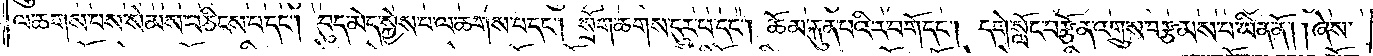ལ་ཆགས་པས་སེམས་བཅིངས་པ་དང༌། བུད་མེད་སྐྱེས་པ་ལ་ཆགས་པ་དང༌། སྲོག་ཆགས་ངུར་པ་དང༌། ཆོམ་རྐུན་པའི་ར་བགོ་དང༌། དགེ་སློང་བརྩོན་འགྲུས་བརྩམས་པ་ཡིན་ནོ། །ཞེས་
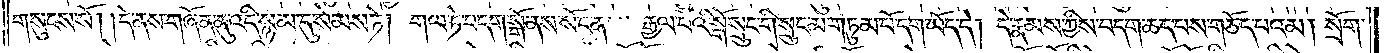གསུངས་སོ། །དེ་ནས་གཞོན་ནུ་འདི་སྙམ་དུ་སེམས་ཏེ། གལ་ཏེ་བདག་སྒོ་ནས་སོང་ན<gap>རྒྱལ་པོའི་སྒོ་སྲུང་གི་སྲུང་མ་གཏུམ་པོ་དག་ཡོད་དེ། དེ་རྣམས་ཀྱིས་བདག་ཆད་བས་གཅོད་པའམ། སྲོག་
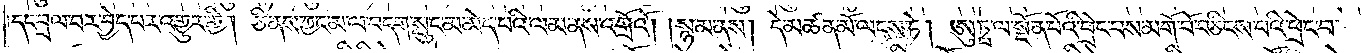དང་བྲལ་བར་བྱེད་པར་འགྱུར་གྱི། ཅི་ནས་ཀྱང་མ་ལ་བདག་སྲུང་མ་མེད་པའི་ལམ་ནས་འགྲོའོ། །སྙམ་ནས། དེ་མཚན་མོ་ལངས་ཏེ། ཨུཏྤ་ལ་སྔོན་པོའི་ཕྲེང་བས་མགོ་བོ་བཅིངས་པའི་ཕྲེང་བ་
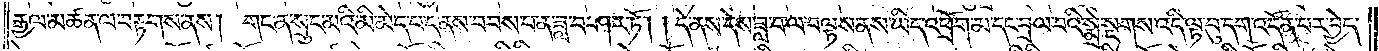རྒྱལ་མཚན་ལ་བརྟགས་ནས། གང་ན་སྲུང་མའི་མི་མེད་པ་དེ་ནས་བབས་པ་ན་ཟླ་བ་ཤར་ཏོ། །དེ་ནས་དེས་ཟླ་བ་ལ་བལྟས་ནས་ཡིད་འཕྲོག་མ་དང་བྲལ་བའི་སྨྲེ་སྔགས་འདི་ལྟ་བུ་དག་འདོན་པར་བྱེད་
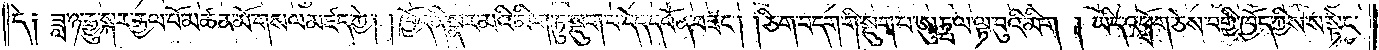དེ༑ ཟླ་ཉ་རྒྱུ་སྐར་རྒྱལ་པོ་མཚན་མོ་གསལ་མཛད་ཀྱེ། །ཁྱོད་ནི་སྣར་མའི་མིག་ཏུ་སྡུག་པ་དེད་དཔོན་བཟང༌། །ཅིག་བདག་གི་སྡུག་པ་ཨུཏྤལ་ལྟ་བུའི་མིག །ཡིད་འཕྲོག་ཅེས་བགྱི་ཁྱོད་ཀྱིས་ས་སྟེང་
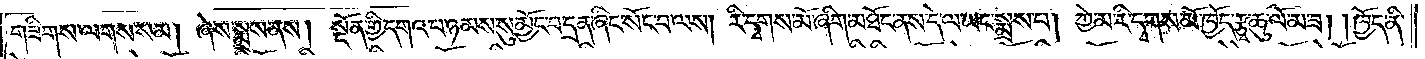གཟིགས་ལགས་སམ། ཞེས་སྨྲས་ནས། སྔོན་གྱི་དགའ་པ་ཉམས་སུ་མྱོང་བ་དྲན་ཞིང་སོང་བ་ལས། རི་དྭགས་མོ་ཞིག་མཐོང་ནས་དེ་ལ་ཡང་སྨྲས་པ། ཀྱེ་མ་རི་དྭགས་མོ་ཁྱོད་རྩྭ་ཆུ་ལོ་མ་ཟ། ཁྱོད་ནི་
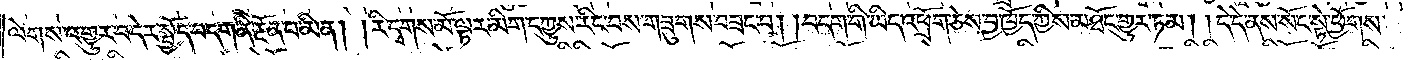ལེགས་འགྱུར་བ་དེར་སྤྱོད་བདག་ནི་རྔོན་པ་མིན། །རི་དྭགས་མོ་ལྟར་མིག་དཀྱུས་རིང་བས་གཟུགས་བཟང་བ། །བདག་གི་ཡིད་འཕྲོག་ཅེས་བྱ་ཁྱོད་ཀྱིས་མཐོང་གྱུར་ཏམ། །དེ་དེ་ནས་སོང་སྟེ་ཕྱོགས་
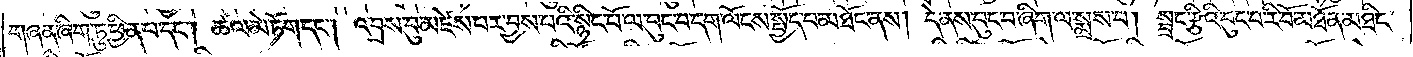གཞན་ཞིག་ཏུ་ཕྱིན་པ་དང༌། ཚལ་མེ་ཏོག་དང༌། འབྲས་བུ་མཛེས་པར་བྱས་པའི་སྙིང་པོ་ལ་བུང་བ་དག་ལོངས་སྤྱོད་པ་མཐོང་ནས། དེ་ནས་བུང་བ་ཞིག་ལ་སྨྲས་པ། སྦྲང་རྩིའི་བུང་བ་རི་བོ་མཐོན་མཐིང་
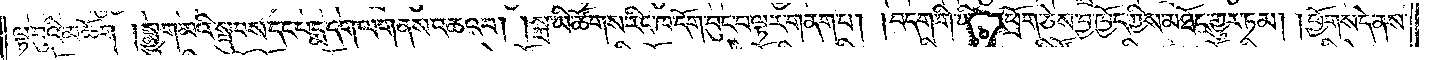ལྟ་བུའི་མཆོག །སྨྱུག་མའི་སྦུབས་དང་པདྨ་དག་ལ་གནས་འཆའ་བ། །སྐྲ་ཡི་ཚོགས་རིང་ཁ་དོག་བུང་བ་ལྟར་གནག་པ། །བདག་གི་ཡིད་འཕྲོག་ཅེས་བྱ་ཁྱོད་ཀྱིས་མཐོང་གྱུར་ཏམ། །ཕྱོགས་དེ་ནས་
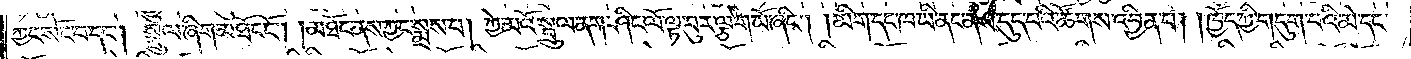ཀྱང་སོང་བ་དང༌། སྦྲུལ་ཞིག་མཐོང་ངོ༌། །མཐོང་ནས་ཀྱང་སྨྲས་པ། ཀྱེ་མའི་སྦྲུལ་ནག་ཤིང་ལོ་ལྟ་བུར་ལྕེ་གཡོ་ཞིང༌། །མིག་དང་ཁ་ཡི་ནང་ནས་དུད་པའི་ཚོགས་འབྱིན་པ། །ཁྱོད་ཀྱི་གདུག་པའི་མེ་དང་
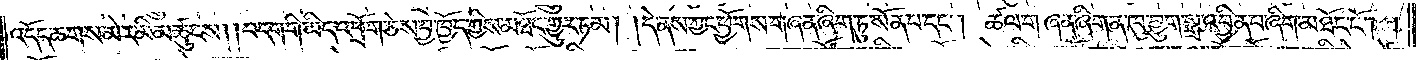འདོད་ཆགས་མེར་མི་མཚུངས། །བདག་གི་ཡིད་འཕྲོག་ཅེས་བྱ་ཁྱོད་ཀྱིས་མཐོང་གྱུར་ཏམ། །དེ་ནས་ཀྱང་ཕྱོགས་གཞན་ཞིག་ཏུ་སོན་པ་དང༌། ཚལ་གཞན་ཞིག་ན་ཁུ་བྱུག་སྒྲ་འབྱིན་པ་ཞིག་མཐོང་ངོ༌། །
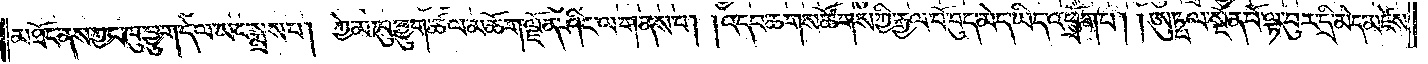མཐོང་ནས་ཀྱང་ཁུ་བྱུག་དེ་ལ་ཡང་སྨྲས་པ། ཀྱེ་མ་ཁུ་བྱུག་ཚལ་མཆོག་ལྗོན་ཤིང་ལ་གནས་པ། །འདབ་ཆགས་ཚོགས་ཀྱི་རྒྱལ་པོ་བུད་མེད་ཡིད་འཕྲོག་པ། །ཨུཏྤལ་སྔོན་པོ་ལྟ་བུར་དྲི་མེད་མཛེས་
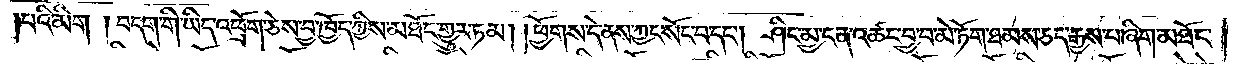པའི་མིག །བདག་གི་ཡིད་འཕྲོག་ཅེས་བྱ་ཁྱོད་ཀྱིས་མཐོང་གྱུར་ཏམ། །ཕྱོགས་དེ་ནས་ཀྱང་སོང་བ་དང༌། ཤིང་མྱ་ངན་འཚང་བྱ་བ་མེ་ཏོག་ཐམས་ཅད་རྒྱས་པ་ཞིག་མཐོང་
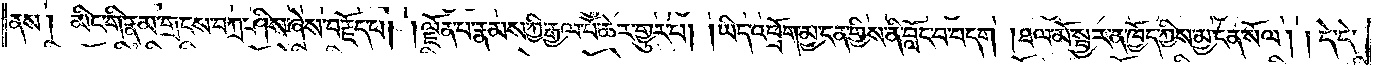ནས། མིང་གི་རྣམ་གྲངས་བཀྲ་ཤིས་ཞེས་བརྗོད་པ། །ལྗོན་པ་རྣམས་ཀྱི་རྒྱལ་པོ་ཆེར་གྱུར་པ། །ཡིད་འཕྲོག་མྱ་ངན་གྱིས་ནི་བློང་བ་བདག །ཐལ་མོ་སྦྱར་ན་ཁྱོད་ཀྱིས་མྱ་ངན་སོལ། །དེ་དེ་
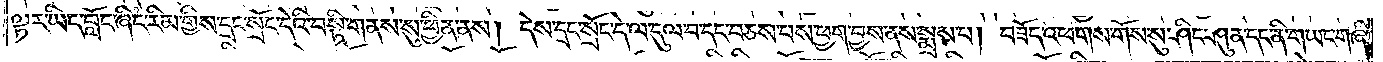ལྟར་ཡིད་བློང་ཞིང་རིམ་གྱིས་དྲང་སྲོང་དེའི་བསྟི་གནས་སུ་ཕྱིན་ནས། །དེས་དྲང་སྲོང་དེ་ལ་དུལ་བ་དང་བཅས་པས་ཕྱག་བྱས་ནས་སྨྲས་པ། བཟོད་འཕགས་གོས་སུ་ཤིང་ཤུན་དང་ནི་གཡང་གཞི་
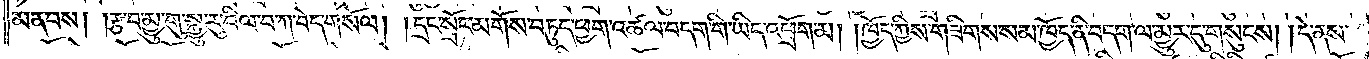མནབས༑ ༑རྩ་བ་མྱུ་གུ་སྐྱུ་རུ་བིལ་བ་ཀ་བདེ་གསོལ། །དྲང་སྲོང་མགོས་བཏུད་ཕྱག་འཚལ་བདག་གི་ཡིད་འཕྲོག་མ། །ཁྱོད་ཀྱིས་གཟིགས་སམ་ཁྱོད་ནི་བདག་ལ་མྱུར་དུ་གསུངས། །དེ་ནས་
